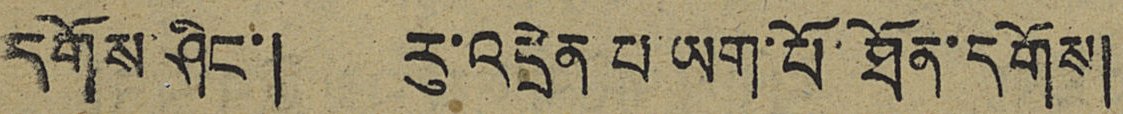དགོས་ཤིང་། རུ་འདྲེན པ ཡག་པོ་ཐོན་དགོས།
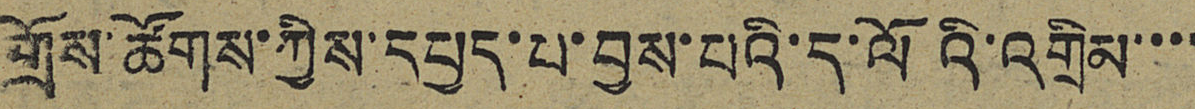གྲོས་ཚོགས་ཀྱིས་དཔྱད་པ་བྱས་པའི་ད་ལོའི་འགྲིམ་་་་
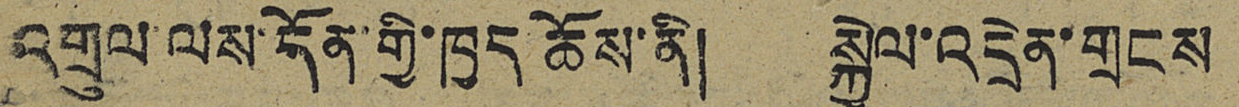འགྲུལ་ལས་དོན་གྱི་ཁྱད་ཆོས་ནི། སྐྱེལ་འདྲེན་གྲངས
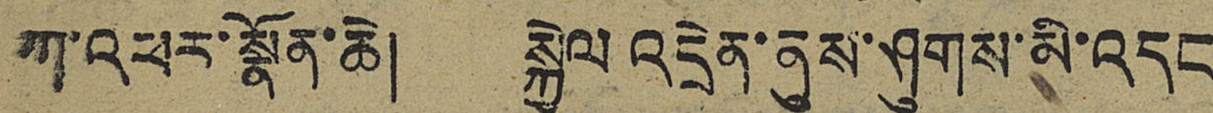ཀ་འཕར་སྣོན་ཆེ། སྐྱེལ་འདྲེན་ནུས་ཤུགས་མི་འདང
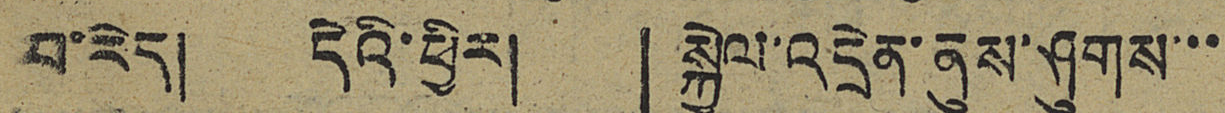བ་རེད། དེའི་ཕྱིར། 「སྐྱེལ་འདྲེན་ནུས་ཤུགས་་་
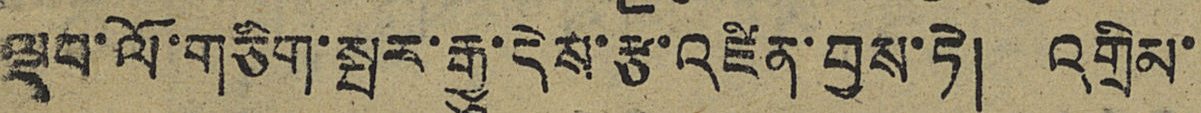ལྡབ་ལོ་གཅིག་སྤར་རྒྱུ་དེས་རྩ་འཛིན་བྱས་ཏེ། འགྲིམ་
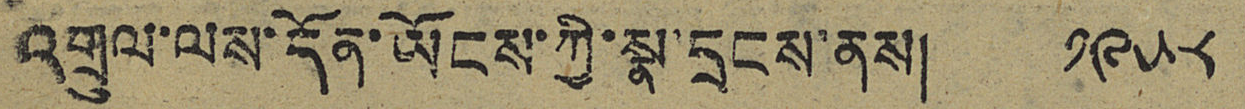འགྲུལ་ལས་དོན་ཡོངས་ཀྱི་སྣ་དྲངས་ནས། ༡༩༥༨
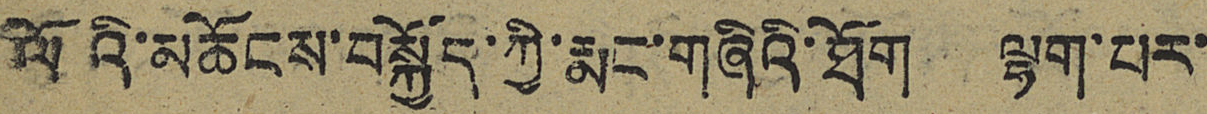ལོའི་མཆོངས་བསྐྱོད་ཀྱི་རྨང་གཞིའི་ཐོག ལྷག་པར་
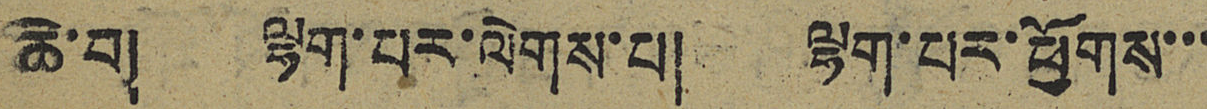ཆེ་བ། ལྷག་པར་ལེགས་པ། ལྷག་པར་ཕྱོགས་་་
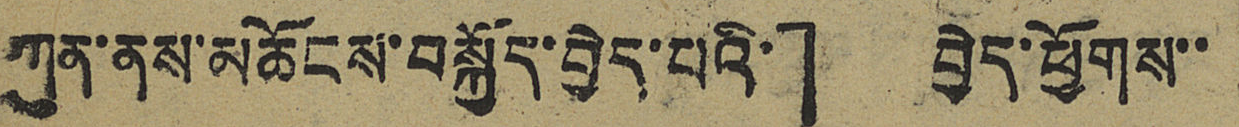ཀུན་ནས་མཆོངས་བསྐྱོད་བྱེད་པའི་」 བྱེད་ཕྱོགས་་
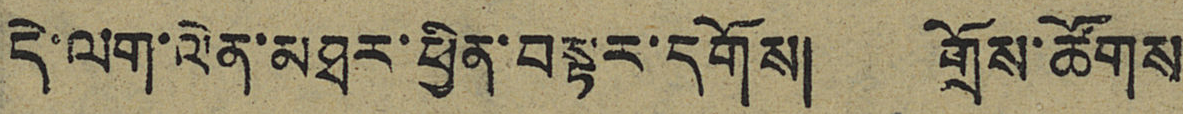དེ་ལག་ལེན་མཐར་ཕྱིན་བསྟར་དགོས། གྲོས་ཚོགས་
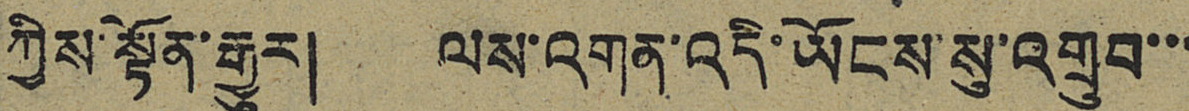ཀྱིས་སྟོན་རྒྱུར། ལས་འགན་འདི་ཡོངས་སུ་འགྲུབ་་་
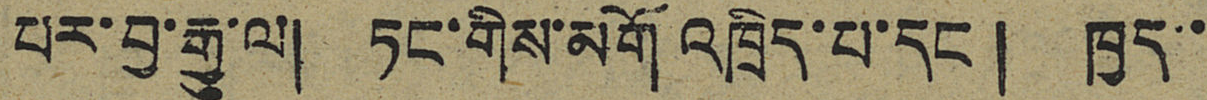པར་བྱ་རྒྱུ་ལ། ཏང་གིས་མགོ་འཁྲིད་པ་དང་། ཁྱད་་
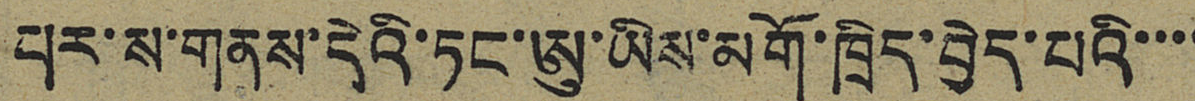པར་ས་གནས་དེའི་ཏང་ཨུ་ཡིས་མགོ་ཁྲིད་བྱེད་པའི་་་་
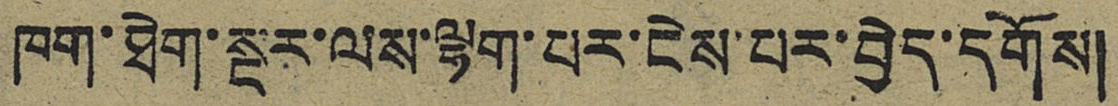ཁག་ཐེག་སྔར་ལས་ལྷག་པར་ངེས་པར་བྱེད་དགོས།
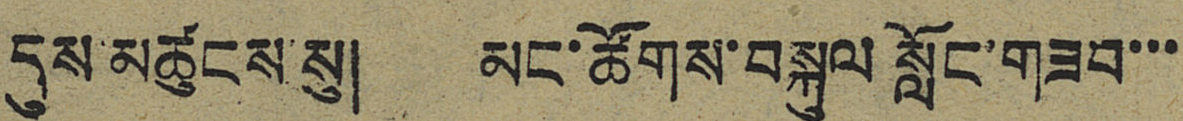དུས་མཚུངས་སུ། མང་ཚོགས་བསྐུལ་སློང་གཟབ་་་་
